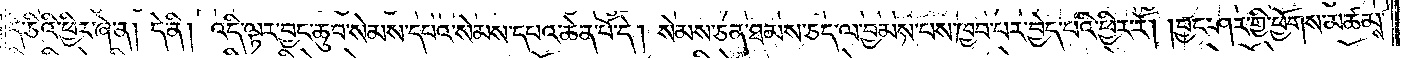དེ་ཅིའི་ཕྱིར་ཞེ་ན། དེ་ནི། འདི་ལྟར་བྱང་ཆུབ་སེམས་དཔའ་སེམས་དཔའ་ཆེན་པོ་དེ། སེམས་ཅན་ཐམས་ཅད་ལ་བྱམས་པས་ཁྱབ་པར་བྱེད་པའི་ཕྱིར་རོ། །བྱང་ཤར་གྱི་ཕྱོགས་མཚམས་
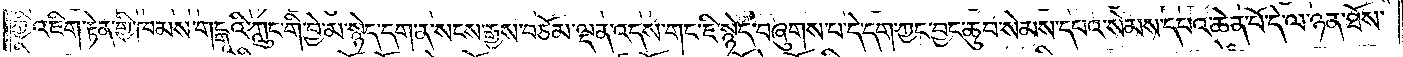ཀྱི་འཇིག་རྟེན་གྱི་ཁམས་གངྒཱའི་ཀླུང་གི་བྱེ་མ་སྙེད་དག་ན་སངས་རྒྱས་བཅོམ་ལྡན་འདས་གང་ཇི་སྙེད་བཞུགས་པ་དེ་དག་ཀྱང་བྱང་ཆུབ་སེམས་དཔའ་སེམས་དཔའ་ཆེན་པོ་དེ་ལ་ཉན་ཐོས་
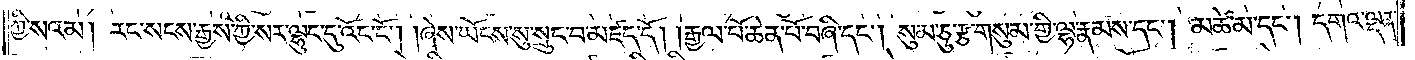ཀྱི་སའམ། རང་སངས་རྒྱས་ཀྱི་སར་ལྷུང་དུ་འོང་ངོ༌། །ཞེས་ཡོངས་སུ་སྲུང་བ་མཛད་དོ། །རྒྱལ་པོ་ཆེན་པོ་བཞི་དང༌། སུམ་ཅུ་རྩ་གསུམ་གྱི་ལྷ་རྣམས་དང༌། མཚེ་མ་དང༌། དགའ་ལྡན་
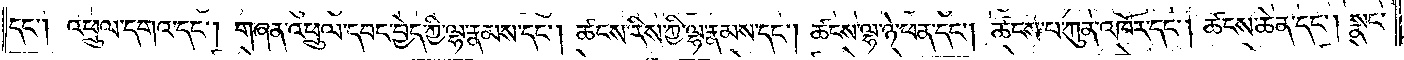དང༌། འཕྲུལ་དགའ་དང༌། གཞན་འཕྲུལ་དབང་བྱེད་ཀྱི་ལྷ་རྣམས་དང༌། ཚངས་རིས་ཀྱི་ལྷ་རྣམས་དང༌། ཚངས་ལྷ་ཉེ་ཕན་དང༌། ཚངས་པ་ཀུན་འཁོར་དང༌། ཚངས་ཆེན་དང༌། སྣང་
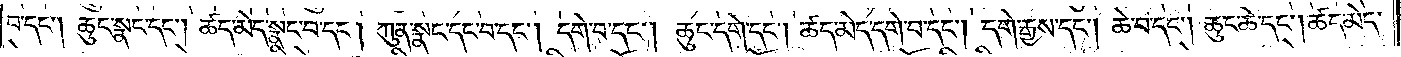བ་དང༌། ཆུང་སྣང་དང༌། ཚད་མེད་སྣང་བ་དང༌། ཀུན་སྣང་དང་བ་དང༌། དགེ་བ་དང༌། ཆུང་དགེ་དང༌། ཚད་མེད་དགེ་བ་དང༌། དགེ་རྒྱས་དང༌། ཆེ་བ་དང༌། ཆུང་ཆེ་དང༌། ཚད་མེད་
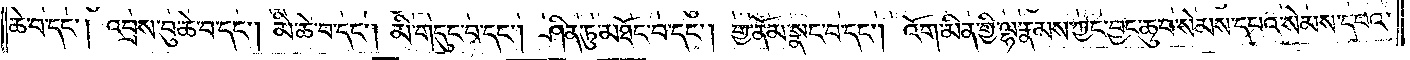ཆེ་བ་དང༌། འབྲས་བུ་ཆེ་བ་དང༌། མི་ཆེ་བ་དང༌། མི་གདུང་བ་དང༌། ཤིན་ཏུ་མཐོང་བ་དང༌། གྱ་ནོམ་སྣང་བ་དང༌། འོག་མིན་གྱི་ལྷ་རྣམས་ཀྱང་བྱང་ཆུབ་སེམས་དཔའ་སེམས་དཔའ་
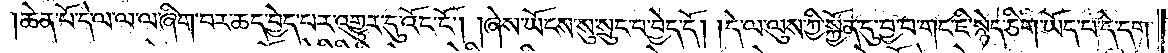ཆེན་པོ་དེ་ལ་ལ་ལ་ཞིག་བར་ཆད་བྱེད་པར་འགྱུར་དུ་འོང་ངོ༌། །ཞེས་ཡོངས་སུ་སྲུང་བ་བྱེད་དོ། །དེ་ལ་ལུས་ཀྱི་སྐྱོན་དུ་བྱ་བ་གང་ཇི་སྙེད་ཅིག་ཡོད་པ་དེ་དག་
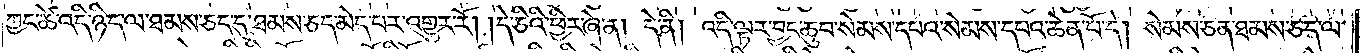ཀྱང་ཚེ་འདི་ཉིད་ལ་ཐམས་ཅད་དུ་ཐམས་ཅད་མེད་པར་འགྱུར་རོ། །དེ་ཅིའི་ཕྱིར་ཞེ་ན། དེ་ནི། འདི་ལྟར་བྱང་ཆུབ་སེམས་དཔའ་སེམས་དཔའ་ཆེན་པོ་དེ། སེམས་ཅན་ཐམས་ཅད་ལ་
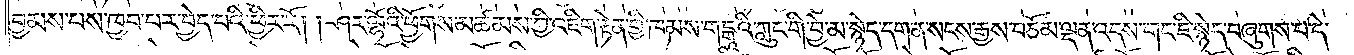བྱམས་པས་ཁྱབ་པར་བྱེད་པའི་ཕྱིར་རོ། །ཤར་ལྷོའི་ཕྱོགས་མཚམས་ཀྱི་འཇིག་རྟེན་གྱི་ཁམས་གངྒཱའི་ཀླུང་གི་བྱེ་མ་སྙེད་དག་ན་སངས་རྒྱས་བཅོམ་ལྡན་འདས་གང་ཇི་སྙེད་བཞུགས་པ་དེ་
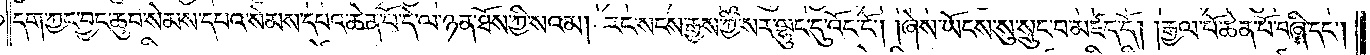དག་ཀྱང་བྱང་ཆུབ་སེམས་དཔའ་སེམས་དཔའ་ཆེན་པོ་དེ་ལ་ཉན་ཐོས་ཀྱི་སའམ། རང་སངས་རྒྱས་ཀྱི་སར་ལྷུང་དུ་འོང་ངོ༌། །ཞེས་ཡོངས་སུ་སྲུང་བ་མཛད་དོ། །རྒྱལ་པོ་ཆེན་པོ་བཞི་དང༌།
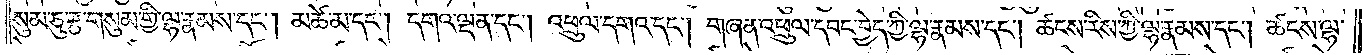སུམ་ཅུ་རྩ་གསུམ་གྱི་ལྷ་རྣམས་དང༌། མཚེ་མ་དང༌། དགའ་ལྡན་དང༌། འཕྲུལ་དགའ་དང༌། གཞན་འཕྲུལ་དབང་བྱེད་ཀྱི་ལྷ་རྣམས་དང༌། ཚངས་རིས་ཀྱི་ལྷ་རྣམས་དང༌། ཚངས་ལྷ་
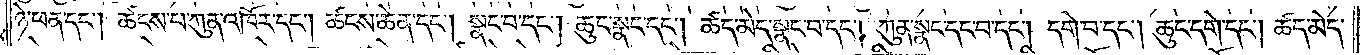ཉེ་ཕན་དང༌། ཚངས་པ་ཀུན་འཁོར་དང༌། ཚངས་ཆེན་དང༌། སྣང་བ་དང༌། ཆུང་སྣང་དང༌། ཚད་མེད་སྣང་བ་དང༌། ཀུན་སྣང་དང་བ་དང༌། དགེ་བ་དང༌། ཆུང་དགེ་དང༌། ཚད་མེད་
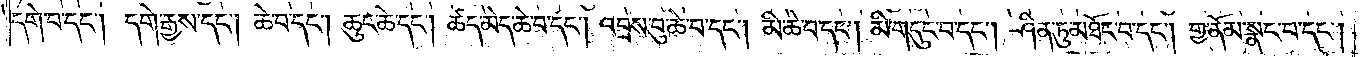དགེ་བ་དང༌། དགེ་རྒྱས་དང༌། ཆེ་བ་དང༌། ཆུང་ཆེ་དང༌། ཚད་མེད་ཆེ་བ་དང༌། འབྲས་བུ་ཆེ་བ་དང༌། མི་ཆེ་བ་དང༌། མི་གདུང་བ་དང༌། ཤིན་ཏུ་མཐོང་བ་དང༌། གྱ་ནོམ་སྣང་བ་དང༌།
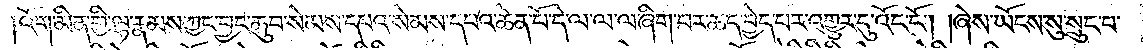འོག་མིན་གྱི་ལྷ་རྣམས་ཀྱང་བྱང་ཆུབ་སེམས་དཔའ་སེམས་དཔའ་ཆེན་པོ་དེ་ལ་ལ་ལ་ཞིག་བར་ཆད་བྱེད་པར་འགྱུར་དུ་འོང་ངོ༌། །ཞེས་ཡོངས་སུ་སྲུང་བ་
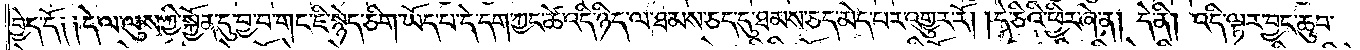བྱེད་དོ༑ ༑དེ་ལ་ལུས་ཀྱི་སྐྱོན་དུ་བྱ་བ་གང་ཇི་སྙེད་ཅིག་ཡོད་པ་དེ་དག་ཀྱང་ཚེ་འདི་ཉིད་ལ་ཐམས་ཅད་དུ་ཐམས་ཅད་མེད་པར་འགྱུར་རོ། །དེ་ཅིའི་ཕྱིར་ཞེ་ན། དེ་ནི། འདི་ལྟར་བྱང་ཆུབ་
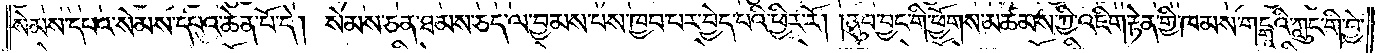སེམས་དཔའ་སེམས་དཔའ་ཆེན་པོ་དེ། སེམས་ཅན་ཐམས་ཅད་ལ་བྱམས་པས་ཁྱབ་པར་བྱེད་པའི་ཕྱིར་རོ། །ནུབ་བྱང་གི་ཕྱོགས་མཚམས་ཀྱི་འཇིག་རྟེན་གྱི་ཁམས་གངྒཱའི་ཀླུང་གི་བྱེ་
